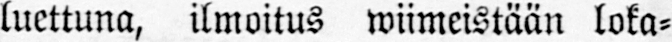luettuna, ilmoitus wiimeistään loka-
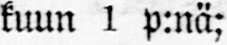kuun 1 p:nä;
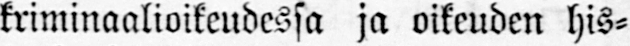kriminaalioikeudessa ja oikeuden his-
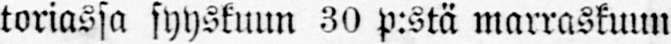toriassa syyskuun 30 p:stä marraskuun
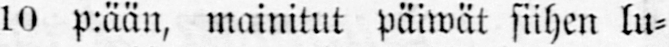10 p:ään, mainitut päiwät siihen lu-
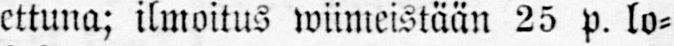ettuna; ilmoitus wiimeistään 25 p. lo-
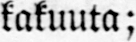kakuuta;
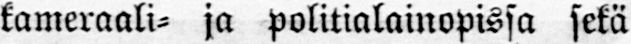kameraali- ja politialainopissa sekä
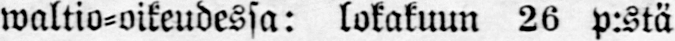waltio-oikeudessa: lokakuun 26 p:stä
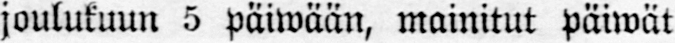joulukuun 5 päiwään, mainitut päiwät
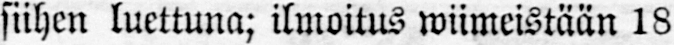siihen luettuna; ilmoitus wiimeistään 18
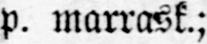p. marrask.;
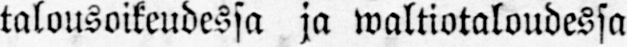talousoikeudessa ja waltiotaloudessa
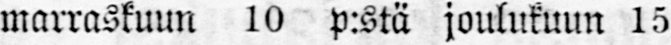marraskuun 10 p:stä joulukuun 15
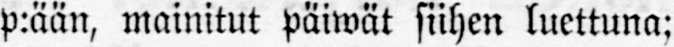p:ään, mainitut päiwät siihen luettuna;
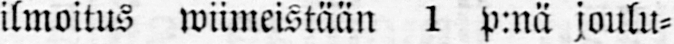ilmoitus wiimeistään 1 p:nä joulu-
